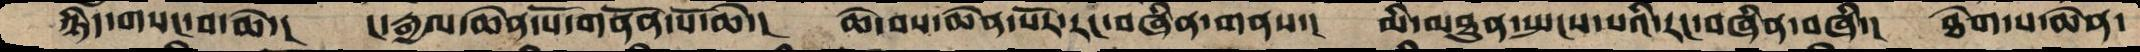ཉིད་གསང་བ་ཆེ་།  ང་རྒྱལ་ཆེན་པོ་གནོན་པོ་ཆེ་།  ཆེ་བས་ཆེན་པོར་རང་བཞིན་གནས་།  མི་མཐུན་སྤངས་པའི་རང་བཞིན་བཞི་།  ཐེག་པ་ཆེན་
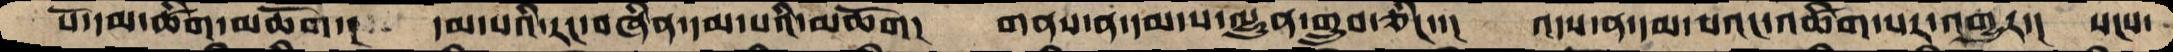པོ་དམ་ཚིག་མཆོག་།  དམ་པའི་རང་བཞིན་དམ་པའི་མཆོག།  གནས་ན་དམ་པ་ལྷུན་གྲུབ་ཅིང་་།  འདས་ན་དམ་པའང་འཚིག་པར་འགྱུར་།   སངས་
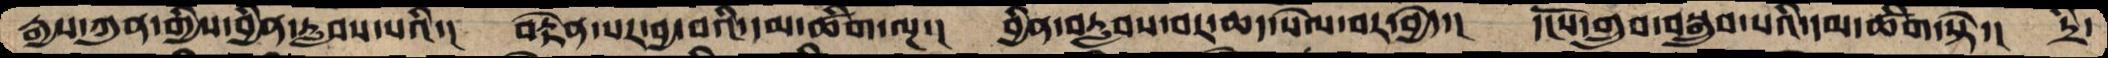རྒྱས་ཀུན་གྱིས་བྱིན་རླབས་པའི་།  བརྟེན་པར་བྱ་བའི་དམ་ཚིག་ལྔ་།  བྱིན་བརླབས་བར་ཆད་སེལ་བར་བྱེད་།  དངོས་གྲུབ་བསྒྲུབ་པའི་དམ་ཚིག་སྟེ་།  དྲི་
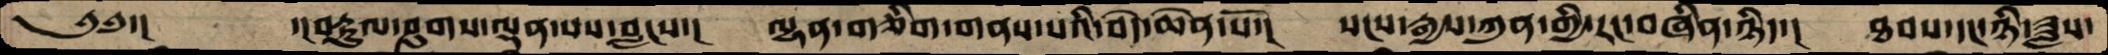༄༅་།     བརྟུལ་ཤུགས་ལྡན་པས་བླངས་།  ལྷན་གཅིག་གནས་པའི་བདེ་ཆེན་པོ་།   སངས་རྒྱས་ཀུན་གྱི་རང་བཞིན་ཉིད་།  ཐབས་དང་ཉི་ཟླས་
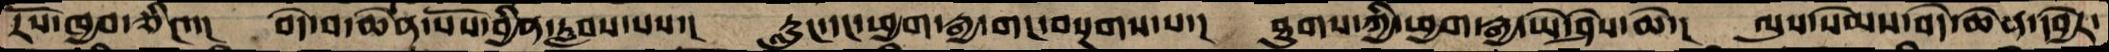རོས་ཁྱབ་ཅིང་་།  བདེ་བ་ཆེན་པོས་བྱིན་རླབས་པས་།  རླུང་དང་ཕྱག་རྒྱ་གང་བསྔགས་པ་།  ཐུགས་ཀྱི་ཕྱག་རྒྱ་ཡེ་ཤེས་ཆེ་།  ལུས་སེམས་བདེ་ཆེན་དབྱེར་
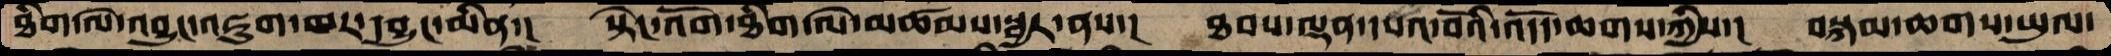ཐིག་ལེ་འབྱུང་འཇུག་ཁར་དབྱུང་མིན་།  སྟེང་འོག་ཐིག་ལེ་མཚམས་སྦྱར་ནས་།  ཐབས་ལྡན་དཔའ་བོའི་འདོད་ཆགས་ཀྱིས་།  བསྐམ་ཆགས་ཡུལ་
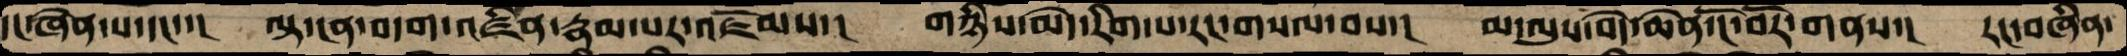དང་ཞེན་པ་དང་་།  ལྟ་ངན་བདག་འཛིན་རྣམ་པར་འཇོམས་།  གཉིས་མེད་རིག་པ་རང་གསལ་བས་།  མ་ལུས་བདེ་ཆེན་ངོ་བོར་གནས་།  རང་བཞིན་
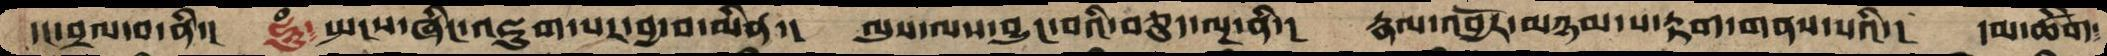དང་བྲལ་བ་ནི་།  ཧཱུཾ༴ སྤངས་ཞིང་འཇུག་པར་བྱ་བ་མིན་།  ལུས་ལས་བྱུང་བའི་བཅུད་ལྔ་ནི་།  རྣལ་འབྱོར་མཉམ་པ་རྟག་གནས་པའི་།  དམ་ཚིག་
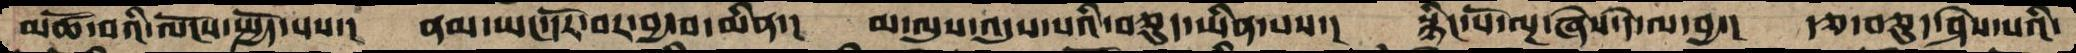མཚོ་བའི་ལོངས་སྤྱོད་པས་།  ནམ་ཡང་དོར་བར་བྱ་བ་མིན་།  མ་ལུས་འདུས་པའི་བཅུད་ཡིན་པས་།  སྙིང་པོ་ལྔ་ཞེས་དེ་ལ་བྱ་།  རྩ་བཅུད་ཤེས་པའི་
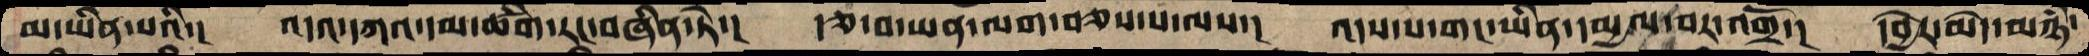མ་ཡིན་པའི་།  འདའ་དཀའ་དམ་ཚིག་རང་བཞིན་ཏེ་།  རྩ་བ་ཡན་ལག་བཅས་པ་ལས་།  འདས་པ་གང་ཡིན་དམྱལ་བར་འགྲོ་།  དབྱེར་མེད་མཉཾ་
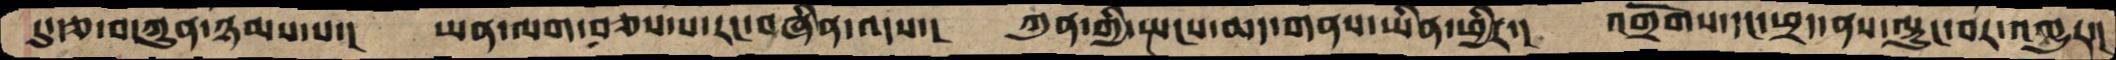དུ་རྩ་བ་ཀུན་ཉམས་པ་།  ཡན་ལག་བཅས་པ་རང་བཞིན་འདས་།  ཀུན་གྱི་སྤངས་ཆད་གནས་ཡིན་ཕྱིར་།  འགྲོགས་དང་ཕྲད་ནས་ལྟུང་བར་འགྱུར་།
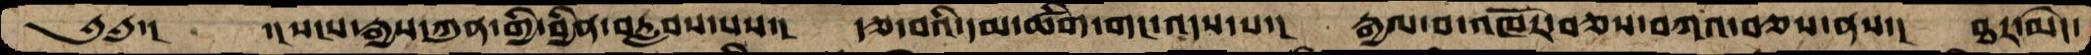༄༅་།    ་།སངས་རྒྱས་ཀུན་གྱི་བྱིན་བརླབས་པས་།  རྩ་བའི་དམ་ཚིག་གང་འདས་པ་།  རྒྱལ་བ་འཁོར་བཅས་བཀའ་བཅས་ནས་།  ཐར་མེད་
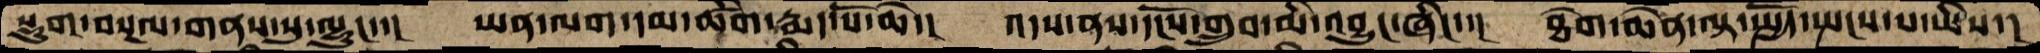སྡུག་བསྔལ་གནས་སུ་ལྷུང་་།  ཡན་ལག་དམ་ཚིག་རྨད་པོ་ཆེ་།  འདས་ནས་དངོས་གྲུབ་མི་འབྱུང་ཞིང་་།  ཐེག་ཆེན་ལྟ་སྤྱོད་སྤངས་པ་ཡིས་།
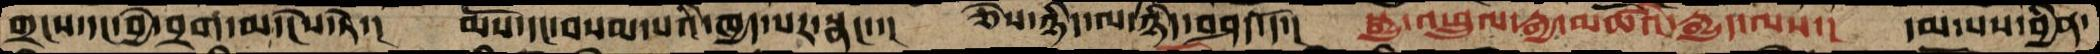གྲངས་དང་བྱེ་བྲག་མ་ངེས་ཏེ་།  མོས་དང་བསམ་པའི་ཁྱད་པར་སྣང་་།  ཅེས་ཉིད་ལ་ཉིད་བཤད་དོ་།  སྒྱུ་འཕྲུལ་རྒྱ་མཚོའི་རྒྱུད་ལས་།  དམ་པས་བྱིན་
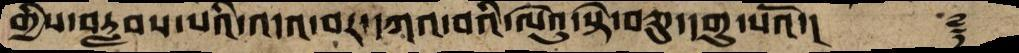གྱིས་བརླབས་པའི་འདའ་བར་དཀའ་བའི་ལེའུ་སྟེ་བཅུ་དགུ་པའོ་།   ࿑
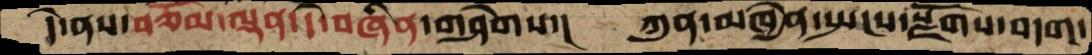དེ་ནས་བཅོམ་ལྡན་དེ་བཞིན་གཤེགས་།  ཀུན་མཁྱེན་སྤངས་སྫོགས་བདག་
